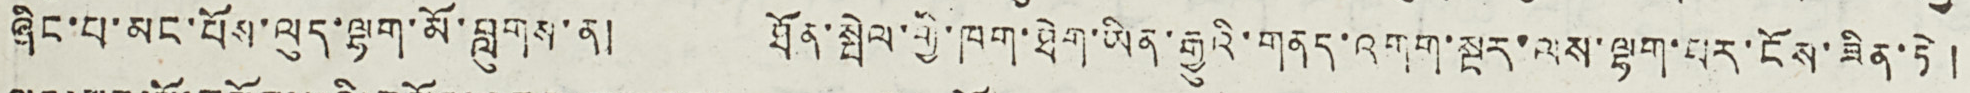ཞིང་པ་མང་པོས་ལུད་ལྷག་མོ་བླུགས་ན། ཐོན་སྤེལ་གྱི་ཁག་ཐེག་ཡིན་རྒྱུའི་གནད་འགག་སྔར་ལས་ལྷག་པར་ངོས་ཟིན་ཏེ།
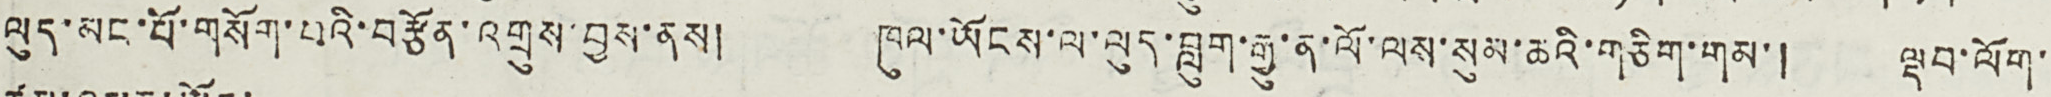ལུད་མང་པོ་གསོག་པའི་བརྩོན་འགྲུས་བྱས་ནས། ཁུལ་ཡོངས་ལ་ལུད་བླུག་རྒྱུ་ན་ལོ་ལས་སུམ་ཆའི་གཅིག་གམ་། ལྡབ་ལོག་
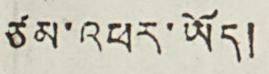ཙམ་འཕར་ཡོད།
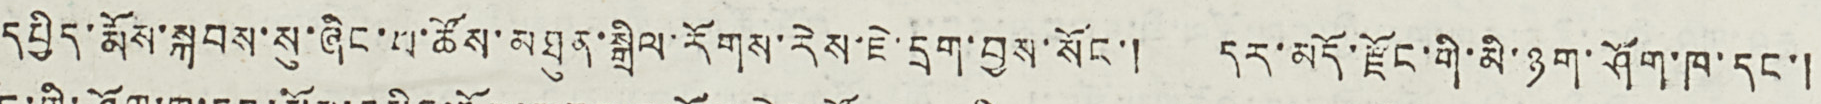དཔྱིད་རྨོས་སྐབས་སུ་ཞིང་པ་ཚོས་མཐུན་སྒྲིལ་རོགས་རེས་ཇེ་དྲག་བྱས་སོང་། དར་མདོ་རྫོང་གི་མི་ཉག་ཤོག་ཁག་དང་།
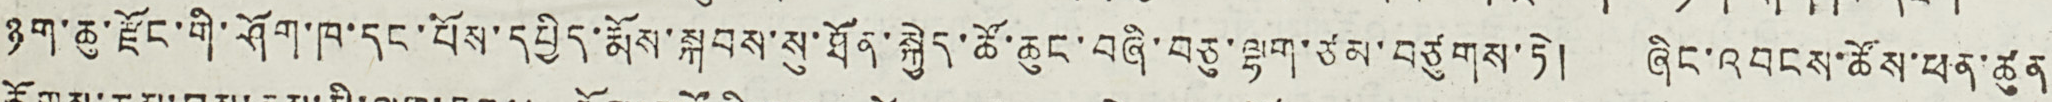ཉག་ཆུ་རྫོང་གི་ཤོག་ཁག་དང་པོས་དཔྱིད་རྨོས་སྐབས་སུ་ཐོན་སྐྱེད་ཚོ་ཆུང་བཞི་བཅུ་ལྷག་ཙམ་བཙུགས་ཏེ། ཞིང་འབངས་ཚོས་ཕན་ཚུན
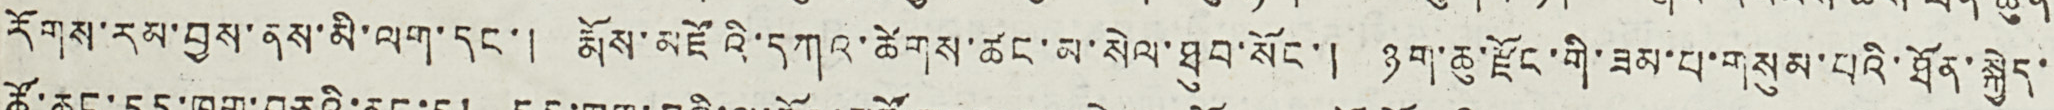རོགས་རམ་བྱས་ནས་མི་ལག་དང་། རྨོས་མཛོའི་དཀའ་ཚེགས་ཚང་མ་སེལ་ཐུབ་སོང་། ཉག་ཆུ་རྫོང་གི་ཟམ་པ་གསུམ་པའི་ཐོན་སྐྱེད་
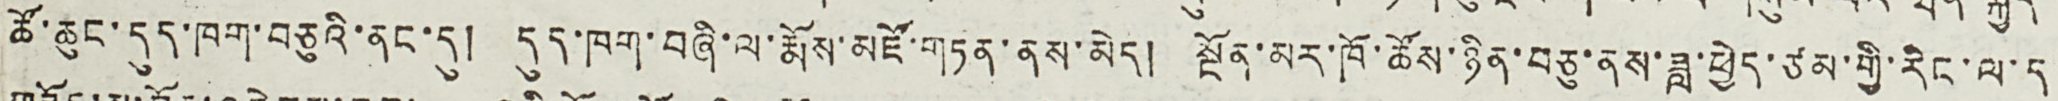ཚོ་ཆུང་དུད་ཁག་བཅུའི་ནང་དུ། དུད་ཁག་བཞི་ལ་རྨོས་མཛོ་གཏན་ནས་མེད། སྔོན་མར་ཁོ་ཚོས་ཉིན་བཅུ་ནས་ཟླ་ཕྱེད་ཙམ་གྱི་རིང་ལ་ད
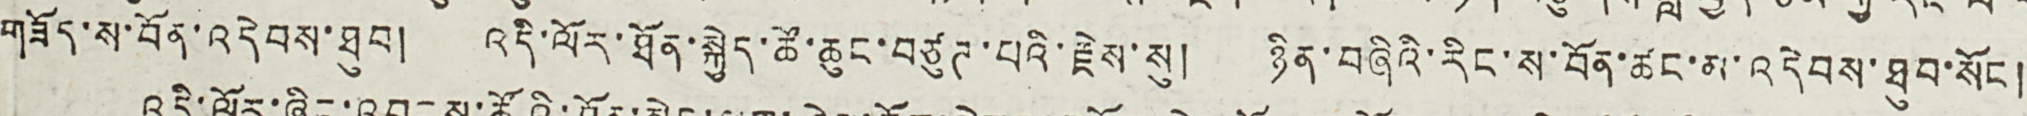གཟོད་ས་བོན་འདེབས་ཐུབ། འདི་ལོར་ཐོན་སྐྱེད་ཚོ་ཆུང་བཙུཊ་པའི་རྗེས་སུ། ཉིན་བཞིའི་རིང་ས་བོན་ཚང་མ་འདེབས་ཐུབ་སོང །
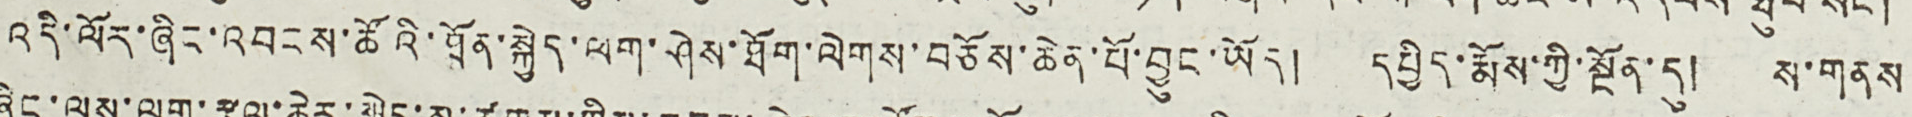འདི་ལོར་ཞིང་འབངས་ཚོའི་ཐོན་སྐྱེད་ལག་ཤེས་ཐོག་ལེགས་བཅོས་ཆེན་པོ་བྱུང་ཡོད། དཔྱིད་རྨོས་ཀྱི་སྔོན་དུ། ས་གནས
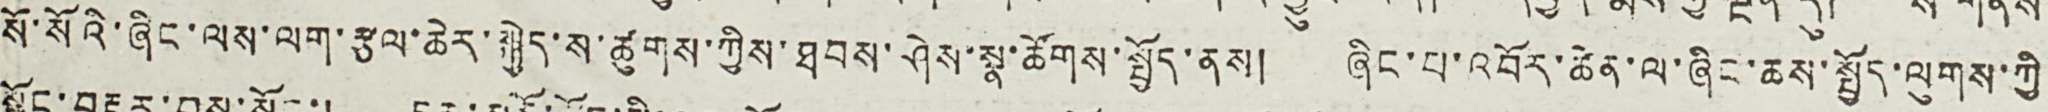སོ་སོའི་ཞིང་ལས་ལག་རྩལ་ཆེར་སྐྱེད་ས་ཚུགས་ཀྱིས་ཐབས་ཤེས་སྣ་ཚོགས་སྤྱོད་ནས། ཞིང་པ་འབོར་ཆེན་ལ་ཞིང་ཆས་སྤྱོད་ལུགས་ཀྱི
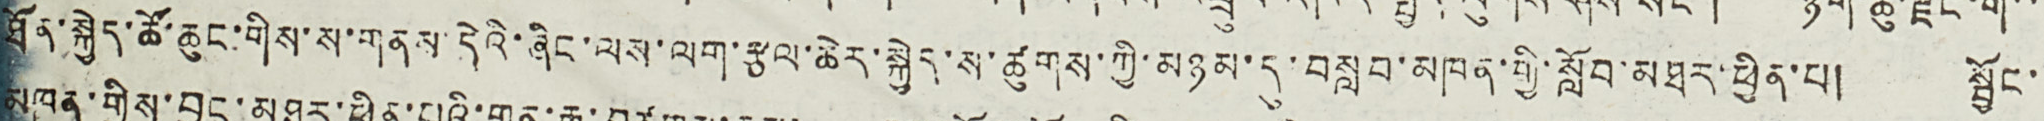ཐོན་སྐྱེད་ཚོ་ཆུང་གིས་ས་གནས་དེའི་ཞིང་ལས་ལག་རྩལ་ཆེར་སྐྱེད་ས་ཚུགས་ཀྱི་མཉམ་དུ་བསླབ་མཁན་གྱི་སློབ་མཐར་ཕྱིན་པ། སྦྱོང་
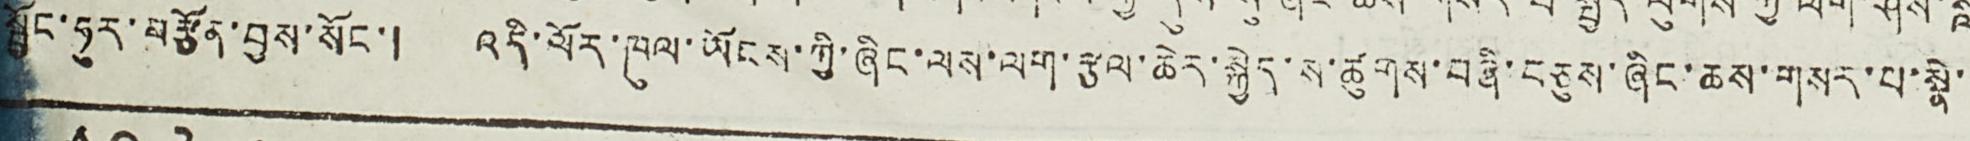སྦྱོང་ཧུར་བརྩོན་བྱས་སོང་། འདི་ལོར་ཁུལ་ཡོངས་ཀྱི་ཞིང་ལས་ལག་རྩལ་ཆེར་སྐྱེད་ས་ཚུགས་བཞི་བཅུས་ཞིང་ཆས་གསར་པ་སྣེ་
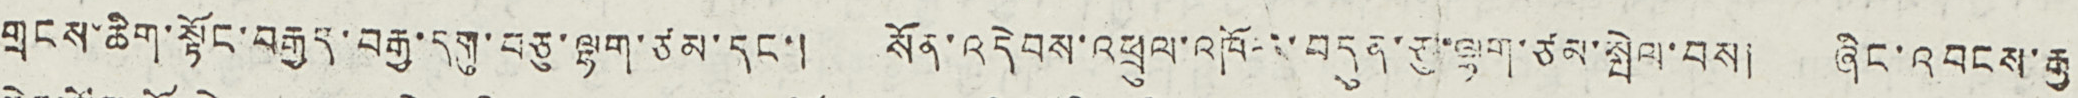གྲངས་ཆིག་སྟོང་བརྒྱད་བརྒྱ་དགུ་བཅུ་ལྷག་ཙམ་དང་། སོན་འདེབས་འཕྲུལ་འཁོར་བདུན་ཅུ་ལྷག་ཙམ་སྤེལ་བས། ཞིང་འབངས་རྒྱ
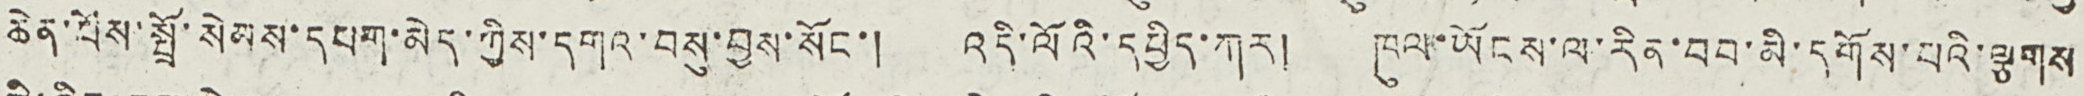ཆེན་པོས་སྤྲོ་སེམས་དཔག་མེད་ཀྱིས་དགའ་བསུ་བྱས་སོང་། འདི་ལོའི་དཔྱིད་ཀར། ཁུལ་ཡོངས་ལ་རིན་བབ་མི་དགོས་པའི་ལྕགས
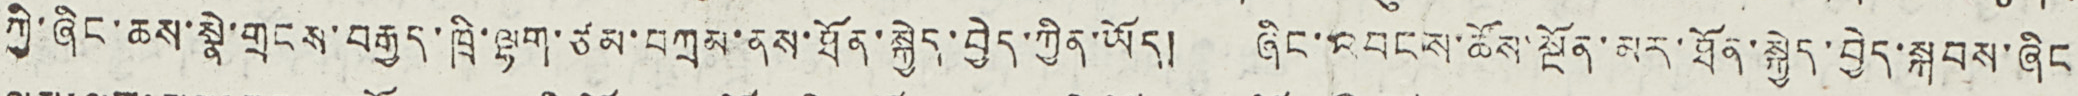ཀྱི་ཞིང་ཆས་སྣེ་གྲངས་བརྒྱད་ཁྲི་ལྷག་ཙམ་བཀྲམ་ནས་ཐོན་སྐྱེད་བྱེད་ཀྱིན་ཡོད། ཞིང་འབངས་ཚོས་སྔོན་མར་ཐོན་སྐྱེད་བྱེད་སྐབས་ཞིང
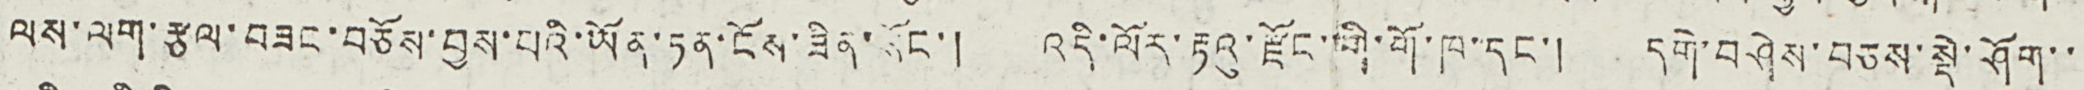ལས་ལག་རྩལ་བཟང་བཅོས་བྱས་པའི་ཡོན་ཏན་ངོས་ཟིན་སོང་། འདི་ལོར་རྟའུ་རྫོང་གི་གོ་ཁ་དང་། དགེ་བཤེས་བཅས་སྡེ་ཤོག་་
